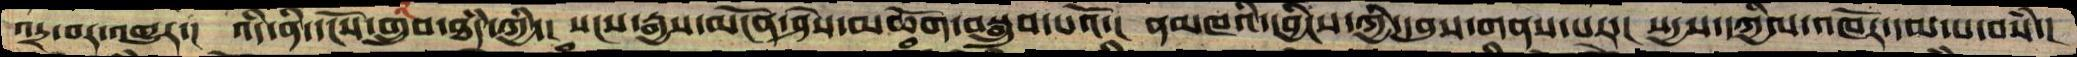འདྲ་བར་འགྱུར་།  འདི་ནི་དངོས་གྲུབ་ཐཾད་ཀྱི་། སངས་རྒྱས་མངོན་ཤེས་མཆོག་བསྒྲུབ་པའོ་།  ནམཁའི་དབྱིངས་ཀྱི་དབུས་གནས་པར་། སདྱས་དཀྱིལ་འཁོར་དམ་པ་བསཾ་།
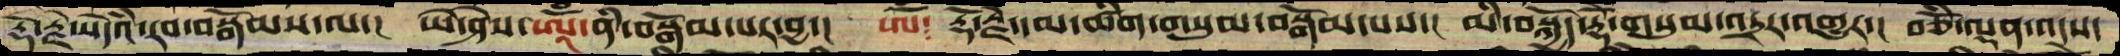རྡོ་རྗེ་སེཾདའ་རབ་བསྒོམས་ལ་།  ཡེ་ཤེས་ཨཱོཾ་ནི་བསྒོམ་པར་བྱ་།  ཨོཾ༴ རྡོ་རྗེ་དམ་ཚིག་གསུམ་བསྒོམ་པས་།  མི་བསྐྱོད་རྡོེ་གསུམ་འདྲར་འགྱུར་།  བཅོཾ་ལྡན་འདས་
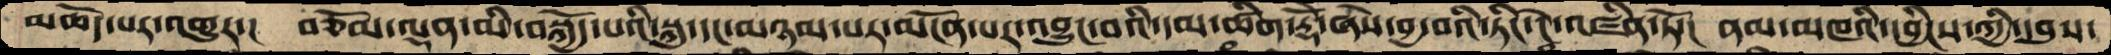མཆོད་པར་འགྱུར་།  བཅོམ་ལྡན་འདས་མི་བསྐྱོད་པའི་སྐུ་དང་མཉམ་པར་མངོན་པར་འབྱུང་བའི་དམ་ཚིག་རྡོེ་ཞེས་བྱ་བའི་ཏིང་ངེ་འཛིན་ཏོ་།  ནམ་མཁའི་དབྱིངས་ཀྱི་དབུས་
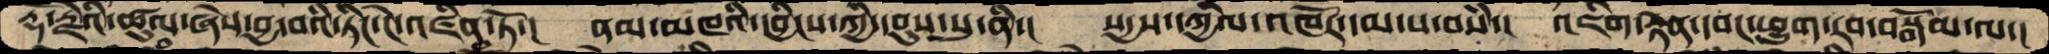རྡོ་རྗེའི་ཚུལ་ཞེས་བྱ་བའི་ཏིང་ངེ་འཛིན་ཏོ་།  ནམ་མཁའི་དབྱིངས་ཀྱི་དབུས་སུ་ནི་། སདྱས་དཀྱིལ་འཁོར་དམ་པ་བསཾ་། འཇིག་རྟེན་དབང་ཕྱུག་རབ་བསྒོམ་ལ་།
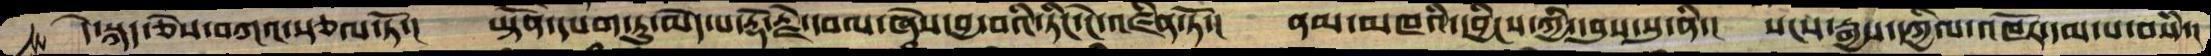དེ་སྐད་ཅེས་བཀའ་སྩལ་ཏོ་།  ཡྟོན་དཔག་ཏུ་མེད་པ་རྡོ་རྗེ་དབལ་ཞེས་བྱ་བའི་ཏིང་ངེ་འཛིན་ཏོ་།  ནམ་མཁའི་དབྱིངས་ཀྱི་དབུས་སུ་ནི་། སངས་རྒྱས་དཀྱིལ་འཁོར་དམ་པ་བསཾ་།
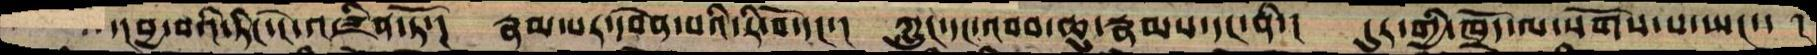་།བྱ་བའི་ཏིང་ངེ་འཛིན་ཏོ་།  རྣམ་པར་དབེན་པའི་རི་བོ་དང་།  ཀླུང་དང་འབབ་ཆུ་རྣམས་དང་ནི་།  དུར་གྱི་ཁྲོད་ལ་སོགས་པ་ཡང་་  །
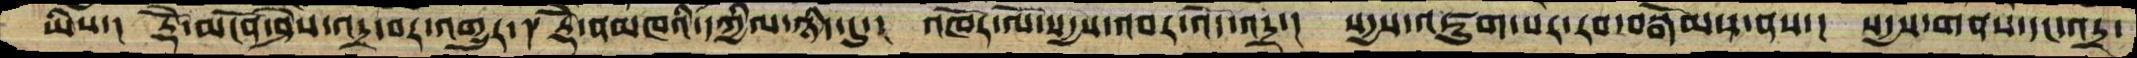ཡིས་།  རྡོེ་མངོན་ཤེས་འདྲ་བར་འགྱུར་། རྡོེ་ནམཁའི་དཀྱིལ་ཉིད་དུ་། འཁོར་ལོ་སདྱས་འབར་འོད་འདྲ་། སདྱས་འཇུག་པར་རབ་བསྒོམས་ནས་། སདྱས་གནས་དང་འདྲ་
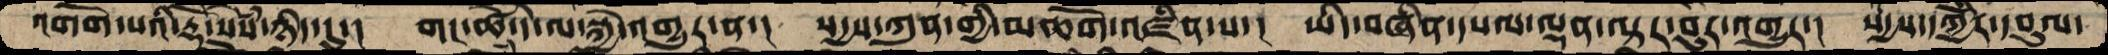འགོག་པའི་རྡོེ་སེཾས་ཉིད་དུ་།  གང་ཚེ་དེ་ལ་སྐྱེ་འགྱུར་ན་། སདྱས་ཀུན་གྱི་མཆོག་འཛིན་པ་། ཡིད་བཞིན་དཔལ་ལྡན་ལྟར་བུར་འགྱུར་། སདྱས་དཀྱིརོ་དབུལ་
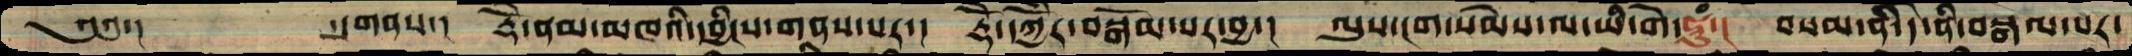༄༅་།   ་།གནས་།   རྡོེ་ནམ་མཁའི་དབྱིངས་གནས་པར་།  རྡོེ་དཀྱིོར་བསྒོམ་པར་བྱ་།  ལུས་ངག་སེམས་ལ་ཡི་གེ་ཧཱུཾ་།  བསམ་ནི་དེ་ནི་བསྐལ་པར་
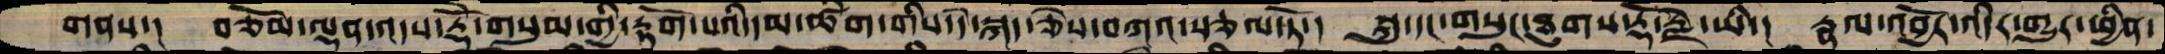གནས་།  བཅོམ་ལྡན་འདས་རྡོེ་གསུམ་གྱི་རྟོག་པའི་དམ་ཚིག་གིས་དེ་སྐད་ཅེས་བཀའ་སྩལ་ཏོ་།  སྐུ་དང་གསུང་ཐུགས་རྡོ་རྗེ་ཡི་།  རྣལ་འབྱོར་འདིར་གྱུར་ཕྱིན་
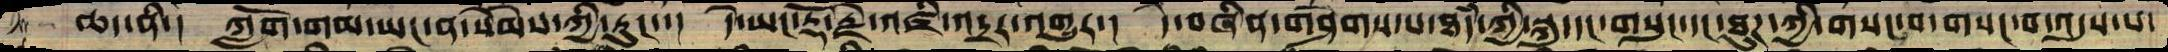ཆད་ནི་། ཀློག་གམ་ཡང་ན་སེམས་ཀྱི་རུང་་། དེ་ཡང་རྡོ་རྗེ་འཛི་འདྲར་འགྱུར་། དེ་བཞིན་གཤེགས་པ་ཐཾད་ཀྱི་སྐུ་དང་གསུང་དང་ཐུཌ་ཀྱི་གསང་བ་གསང་བ་འདུས་པ་
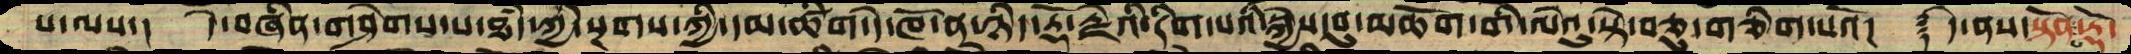པ་ལས་།  དེ་བཞིན་གཤེགས་པ་ཐཾད་ཀྱི་སྔགས་ཀྱི་དམ་ཚིག་དེ་ཁོ་ན་ཉིད་རྡོ་རྗེའི་རིག་པའི་སྐྱེས་བུ་མཆོག་གི་ལེའུ་སྟེ་བཅུ་གཅིག་པའོ།  ༈  དེ་ནས་སྟོན་པ་རྡོ་
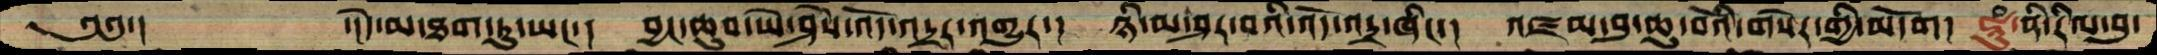༄༅་།      ་།དེ་མ་ཐག་ཏུ་ཡང་།  བྱང་ཆུབ་ཡེ་ཤེས་འོད་འདྲར་འགྱུར་།  ཉི་མ་ཤར་བའི་འདོ་འདྲ་ཞིང་།  འཛམ་བུ་ཆུ་བོའི་གསེར་གྱི་མདོག།  ཧཱུཾ་ནི་རིལ་བུ་
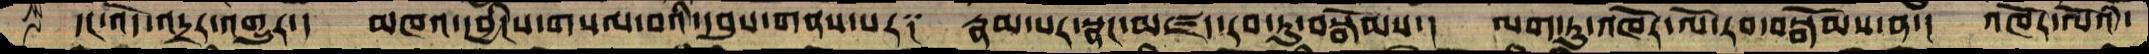དང་འོད་འདྲར་འགྱུར་།  མཁའ་དབྱིངས་གསལ་བའི་དབུས་གནས་པར༑  རྣམ་པར་སྣང་མཛད་རབ་ཏུ་བསྒོམས་། ལག་ཏུ་འཁོར་ལོ་རབ་བསྒོམས་ན་། འཁོར་ལོའི་
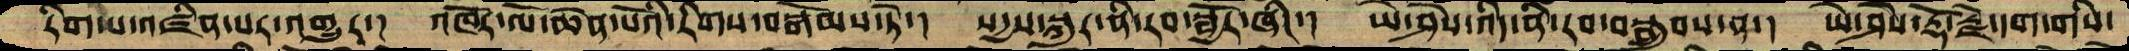རིག་པ་འཛིན་པར་འགྱུར་།  འཁོར་ལོ་ཆེན་པོའི་རིགས་བསྒོམས་ཏེ་།  སདྱས་སྐུར་ནི་རབ་སྦྱོར་ཞིང་།  ཡེ་ཤེས་འདི་ནི་རབ་བསྒྲུབས་ན་།  ཡེ་ཤེས་རྡོ་རྗེ་དག་གིས་
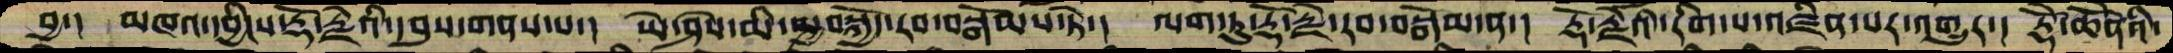བྱ་། མཁའ་དབྱིངས་རྡོ་རྗེའི་དབུས་གནས་པ་། ཡེ་ཤེས་མི་བསྐྱོད་རབ་བསྒོམས་ཏེ་། ལག་ཏུ་རྡོ་རྗེ་རབ་བསྒོམ་ན་། རྡོ་རྗེའི་རིག་པ་འཛིན་པར་འགྱུར་། རྡོེ་ཆེནོའི་
